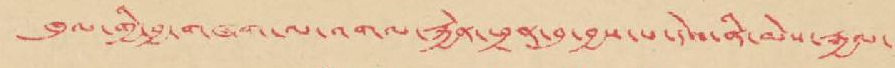ཁུལ་གྱི་བྱ་གཞག་ལ་འགལ་རྐྱེན་ཕྲན་བུ་བྱས་པ་དེས་ནི་མེས་རྒྱལ་
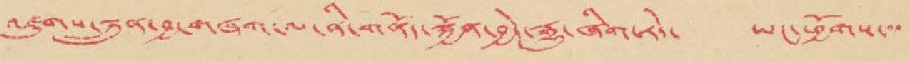འཛུགས་སྐྲུན་བྱ་གཞག་ལ་ནི་གནོད་སྐྱོན་བྱེད་རྒྱུ་ཞིག་རེད་ ཡང་ཕྱོགས་་་
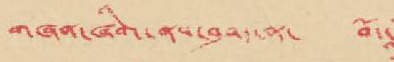གཞན་ཞིག་ནས་བཤད་ན་ བོད་
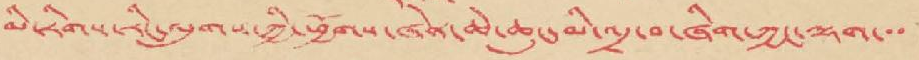མི་རིགས་རིང་ལུགས་ཀྱི་ཕྱོགས་ཞན་ཆེ་ཆུང་མི་འདྲ་བ་ཞིག་ཀྱང་ལྷག་་་
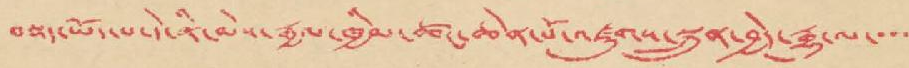བསྡད་ཡོད་པ་དེ་ནི་མེས་རྒྱལ་ཁྱིམ་ཚང་ཆེན་པོ་འཛུགས་སྐྲུན་བྱེད་རྒྱུ་ལ་་་་
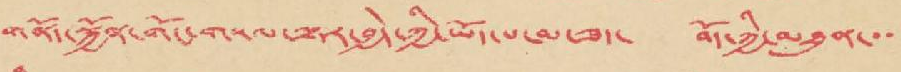གནོད་སྐྱོན་གོང་གསལ་ལྟར་བྱེད་ཀྱི་ཡོད་པ་མ་ཟད་ བོད་ཀྱི་མཐུན་་་
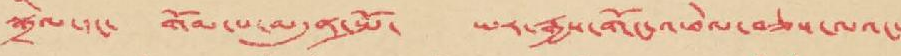སྒྲིལ་དང་ གོམ་པ་བདུན་སྤོ་ ཡར་རྒྱས་གོང་འཕེལ་བཅས་ལའང་
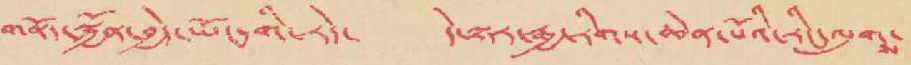གནོད་སྐྱོན་བྱེད་ཡོང་གི་རེད་ དེ་ལྟར་རྒྱ་རིགས་ཆེན་པོའི་རིང་ལུགས་
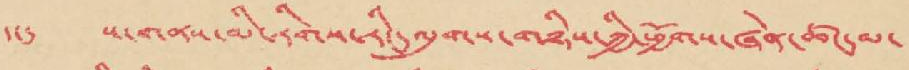དང་ ས་གནས་མི་རིགས་རིང་ལུགས་གཉིས་ཀྱི་ཕྱོགས་ཞེན་ཚང་མ་
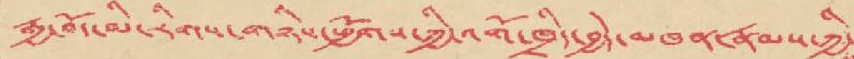རྒྱ་བོད་མི་རིགས་གཉིས་ཕྱོགས་ཀྱི་འགོ་ཁྲིད་བྱེད་མཁན་རྣམས་ཀྱི
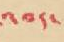འབད་
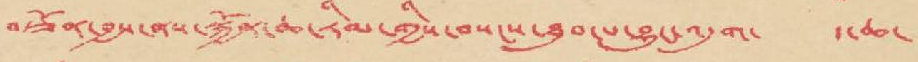བཙོན་བྱས་ནས་སྐྱོན་ཆ་རིམ་གྱིས་བསངས་ཐུབ་པ་བྱུང་འདུག་ ད་ཆ་
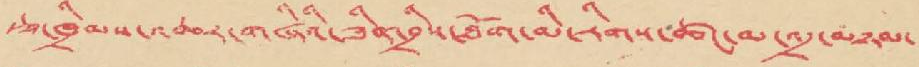ཙ་ཁྲིམས་འཆར་གཞིའི་ཟིན་བྲིས་ཐོག་མི་རིགས་ཚང་མ་འདྲ་མཉམ་
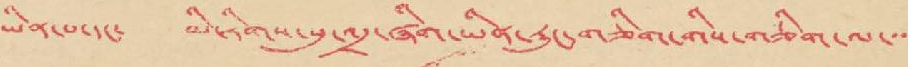ཡིན་པ་དང་ མི་རིགས་སུ་འདྲ་ཞིག་ཡིན་རུང་གཅིག་གིས་གཅིག་ལ་་་
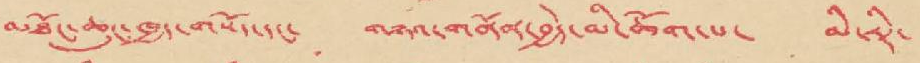མཐོང་ཆུང་ཁྱད་གསོད་དང་ གཉའ་གནོན་བྱེད་མི་ཆོག་དང་ མི་འདྲེ་
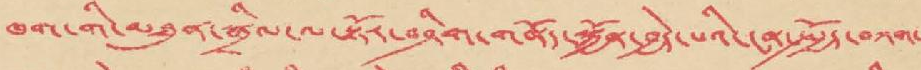ཁག་གི་མཐུན་སྒྲིལ་ལ་སྟོར་བཤིག་གནོད་སྐྱོན་བྱེད་པའི་ངན་སྤྱོད་བཀག་
